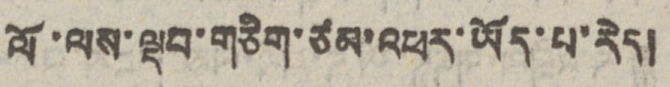ལོ་ལས་ལྡབ་གཅིག་ཙམ་འཕར་ཡོད་པ་རེད།
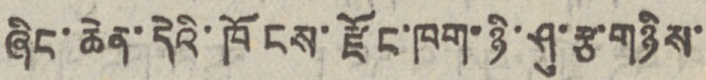ཞིང་ཆེན་དེའི་ཁོངས་རྫོང་ཁག་ཉི་ཤུ་རྩ་གཉིས་
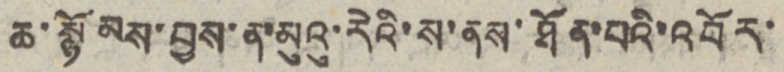ཆ་སྙོམས་བྱས་ན་མུའུ་རེའི་ས་ནས་ཐོན་པའི་འབོར་
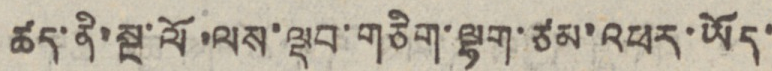ཚད་ནི་སྔ་ལོ་ལས་ལྡབ་གཅིག་ལྷག་ཙམ་འཕར་ཡོད་
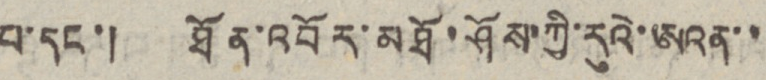པ་དང་། ཐོན་འབོར་མཐོ་ཤོས་ཀྱི་རུའེ་ཨའན་་
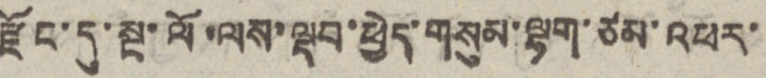རྫོང་དུ་སྔ་ལོ་ལས་ལྡབ་ཕྱེད་གསུམ་ལྷག་ཙམ་འཕར་
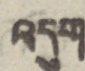འདུག
